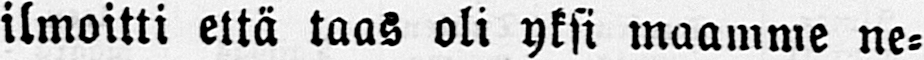ilmoitti että taas oli yksi maamme ne-
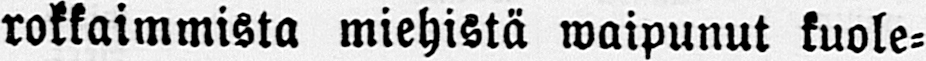rokkaimmista miehistä waipunut kuole-
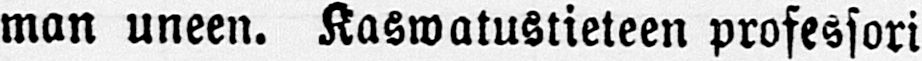man uneen. Kaswatustieteen professori
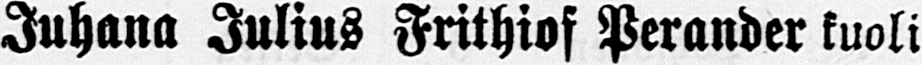Juhana Julius Frithiof Perander kuoli
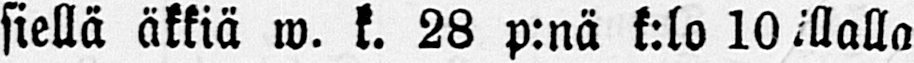siellä äkkiä w. k. 28 p:nä k:lo 10 illalla
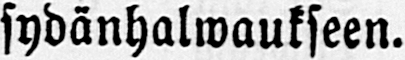sydänhalwaukseen.
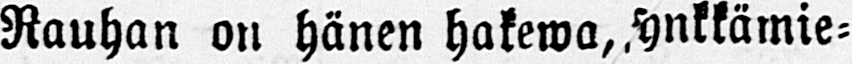Rauhan on hänen hakewa, synkkämie-
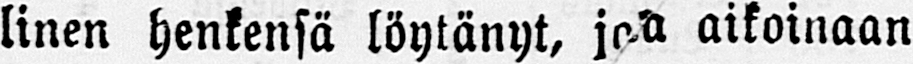linen henkensä löytänyt, aikoinaan
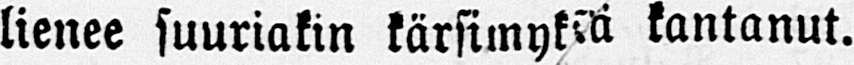lienee suuriakin kärsimykiä kantanut.
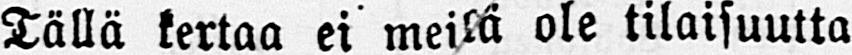Tällä kertaa ei meitä ole tilaisuutta
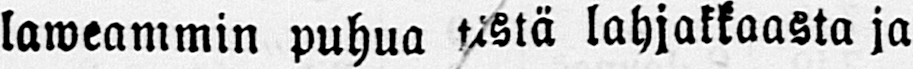laweammin puhua tästä lahjakkaasta ja
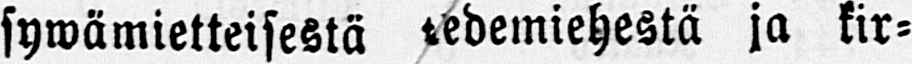sywämietteisestä ja kir-
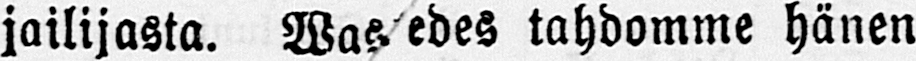jailijasta. Wastedes tahdomme hänen
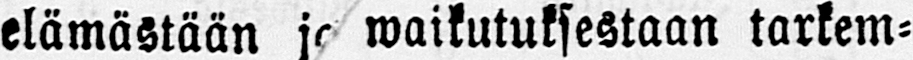elämästään waikutuksestaan tarkem-
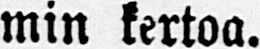min kertoa.
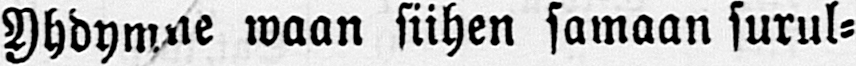Yhdymme waan siihen samaan surul-
